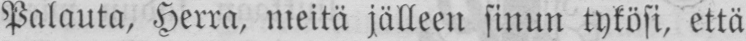Palauta, Herra, meitä jälleen sinun tykösi, että
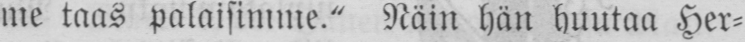me taas palaisimme." Näin hän huutaa Her-
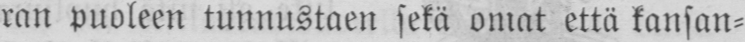ran puoleen tunnustaen sekä omat että kansan-
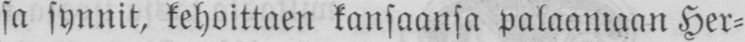sa synnit, kehoittaen kansaansa palaamaan Her-
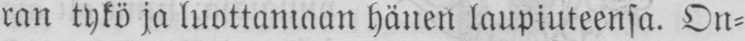ran tykö ja luottamaan hänen laupiuteensa. On-
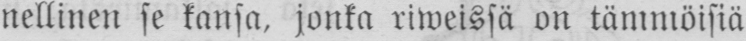nellinen se kansa, jonka riweissä on tämmöisiä
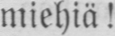miehiä!
